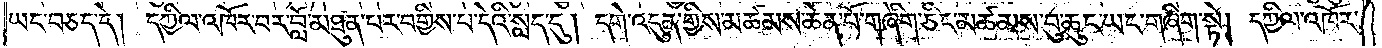ཡང་བཅད་དེ། དཀྱིལ་འཁོར་བར་བློ་མཐུན་པར་བགྱིས་པ་དེའི་སླད་དུ། དགེ་འདུན་གྱིས་མཚམས་ཆེན་པོ་གཞིག་ཅིང་མཚམས་བུ་ཆུང་ཡང་གཞིག་སྟེ། དཀྱིལ་འཁོར་
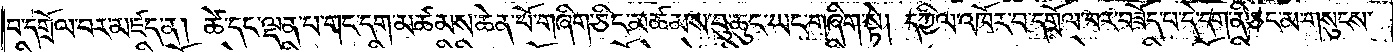བ་དགྲོལ་བར་མཛད་ན། ཚེ་དང་ལྡན་པ་གང་དག་མཚམས་ཆེན་པོ་གཞིག་ཅིང་མཚམས་བུ་ཆུང་ཡང་གཞིག་སྟེ། དཀྱིལ་འཁོར་བ་དགྲོལ་བར་བཟོད་པ་དེ་དག་ནི་ཅང་མ་གསུངས་
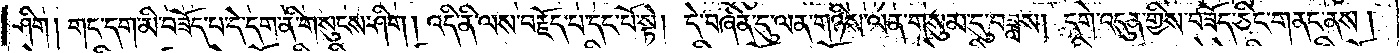ཤིག །གང་དག་མི་བཟོད་པ་དེ་དག་ནི་གསུངས་ཤིག། འདི་ནི་ལས་བརྗོད་པ་དང་པོ་སྟེ། དེ་བཞིན་དུ་ལན་གཉིས་ལན་གསུམ་དུ་བཟླས། དགེ་འདུན་གྱིས་བཟོད་ཅིང་གནང་ནས།
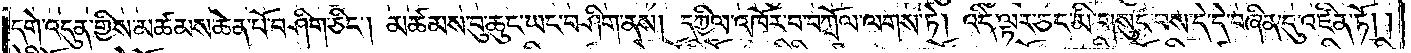དགེ་འདུན་གྱིས་མཚམས་ཆེན་པོ་བཤིག་ཅིང༌། མཚམས་བུ་ཆུང་ཡང་བཤིག་ནས། དཀྱིལ་འཁོར་བ་བཀྲོལ་ལགས་ཏེ། འདི་ལྟར་ཅང་མི་གསུང་བས་དེ་དེ་བཞིན་དུ་འཛིན་ཏོ། །
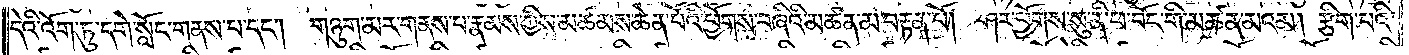དེའི་འོག་ཏུ་དགེ་སློང་གནས་པ་དང༌། གཉུག་མར་གནས་པ་རྣམས་ཀྱིས་མཚམས་ཆེན་པོའི་ཕྱོགས་བཞིའི་མཚན་མ་བརྟན་པོ། ཤར་ཕྱོགས་སུ་ནི་ཕ་བོང་གི་མཚན་མའམ། རྩིག་པའི་
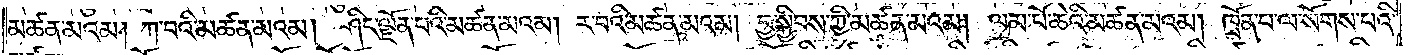མཚན་མའམ། ཀ་བའི་མཚན་མའམ། ཤིང་ལྗོན་པའི་མཚན་མའམ། ར་བའི་མཚན་མའམ། བྱ་སྐྱིབས་ཀྱི་མཚན་མའམ། ལམ་པོ་ཆེའི་མཚན་མའམ། ཁྲོན་པ་ལ་སོགས་པའི་
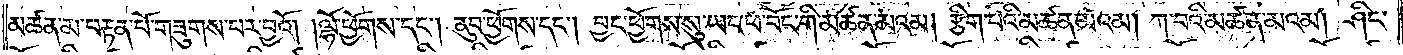མཚན་མ་བརྟན་པོ་གཟུགས་པར་བྱའོ། །ལྷོ་ཕྱོགས་དང༌། ནུབ་ཕྱོགས་དང༌། བྱང་ཕྱོགས་སུ་ཡང་ཕ་ཕོང་གི་མཚན་མའམ། རྩིག་པའི་མཚན་མའམ། ཀ་བའི་མཚན་མའམ། ཤིང་
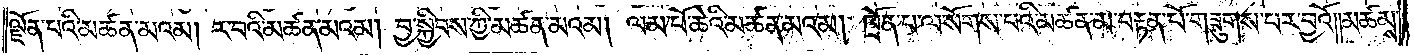ལྗོན་པའི་མཚན་མའམ། ར་བའི་མཚན་མའམ། བྱ་སྐྱིབས་ཀྱི་མཚན་མའམ། ལམ་པོ་ཆེའི་མཚན་མའམ། ཁྲོན་པ་ལ་སོགས་པའི་མཚན་མ་བརྟན་པོ་གཟུགས་པར་བྱའོ། །མཚམས་
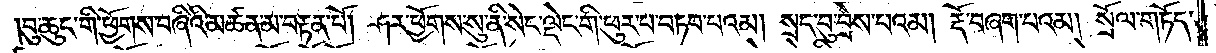བུ་ཆུང་གི་ཕྱོགས་བཞིའི་མཚན་མ་བརྟན་པོ། ཤར་ཕྱོགས་སུ་ནི་སེང་ལྡེང་གི་ཕུར་པ་བཏབ་པའམ། སྲང་བུ་བྲེས་པའམ། རྡོ་བཞག་པའམ། སྲོལ་གཏོད་
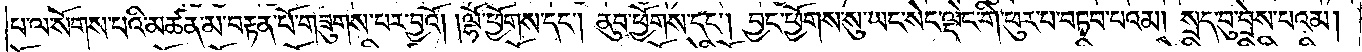པ་ལ་སོགས་པའི་མཚན་མ་བརྟན་པོ་གཟུགས་པར་བྱའོ། །ལྷོ་ཕྱོགས་དང༌། ནུབ་ཕྱོགས་དང༌། བྱང་ཕྱོགས་སུ་ཡང་སེང་ལྡེང་གི་ཕུར་པ་བཏབ་པའམ། སྲད་བུ་བྲེས་པའམ།
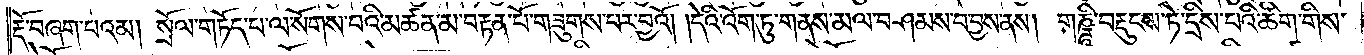རྡོ་བཞག་པའམ། སྲོལ་གཏོད་པ་ལ་སོགས་པའི་མཚན་མ་བརྟན་པོ་གཟུགས་པར་བྱའོ། །དེའི་འོག་ཏུ་གནས་མལ་བཤམས་པ་བྱས་ནས། གཎྜཱི་བརྡུངས་ཏེ་དྲིས་པའི་ཚིག་གིས་
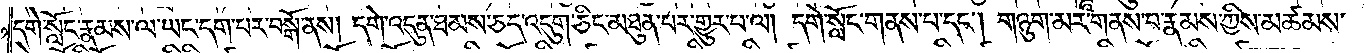དགེ་སློང་རྣམས་ལ་ཡང་དག་པར་བསྒོ་ནས། དགེ་འདུན་ཐམས་ཅད་འདུག་ཅིང་མཐུན་པར་གྱུར་པ་ལ། དགེ་སློང་གནས་པ་དང༌། གཉུག་མར་གནས་པ་རྣམས་ཀྱིས་མཚམས་
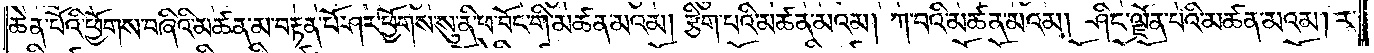ཆེན་པོའི་ཕྱོགས་བཞིའི་མཚན་མ་བརྟན་པོ་ཤར་ཕྱོགས་སུ་ནི་ཕ་བོང་གི་མཚན་མའམ། རྩིག་པའི་མཚན་མའམ། ཀ་བའི་མཚན་མའམ། ཤིང་ལྗོན་པའི་མཚན་མའམ། ར་
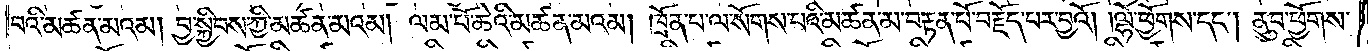བའི་མཚན་མའམ། བྱ་སྐྱིབས་ཀྱི་མཚན་མའམ། ལམ་པོ་ཆེའི་མཚན་མའམ། ཁྲོན་པ་ལ་སོགས་པའི་མཚན་མ་བརྟན་པོ་བརྗོད་པར་བྱའོ། །ལྷོ་ཕྱོགས་དང༌། ནུབ་ཕྱོགས་
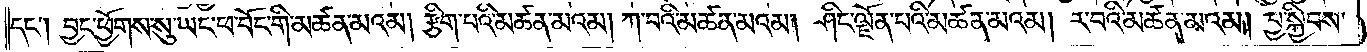དང༌། བྱང་ཕྱོགས་སུ་ཡང་ཕ་བོང་གི་མཚན་མའམ། རྩིག་པའི་མཚན་མའམ། ཀ་བའི་མཚན་མའམ། ཤིང་ལྗོན་པའི་མཚན་མའམ། ར་བའི་མཚན་མའམ། བྱ་སྐྱིབས་
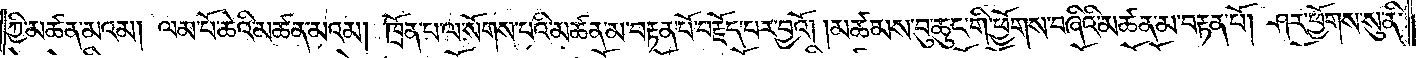ཀྱི་མཚན་མའམ། ལམ་པོ་ཆེའི་མཚན་མའམ། ཁྲོན་པ་ལ་སོགས་པའི་མཚན་མ་བརྟན་པོ་བརྗོད་པར་བྱའོ། །མཚམས་བུ་ཆུང་གི་ཕྱོགས་བཞིའི་མཚན་མ་བརྟན་པོ། ཤར་ཕྱོགས་སུ་ནི་
